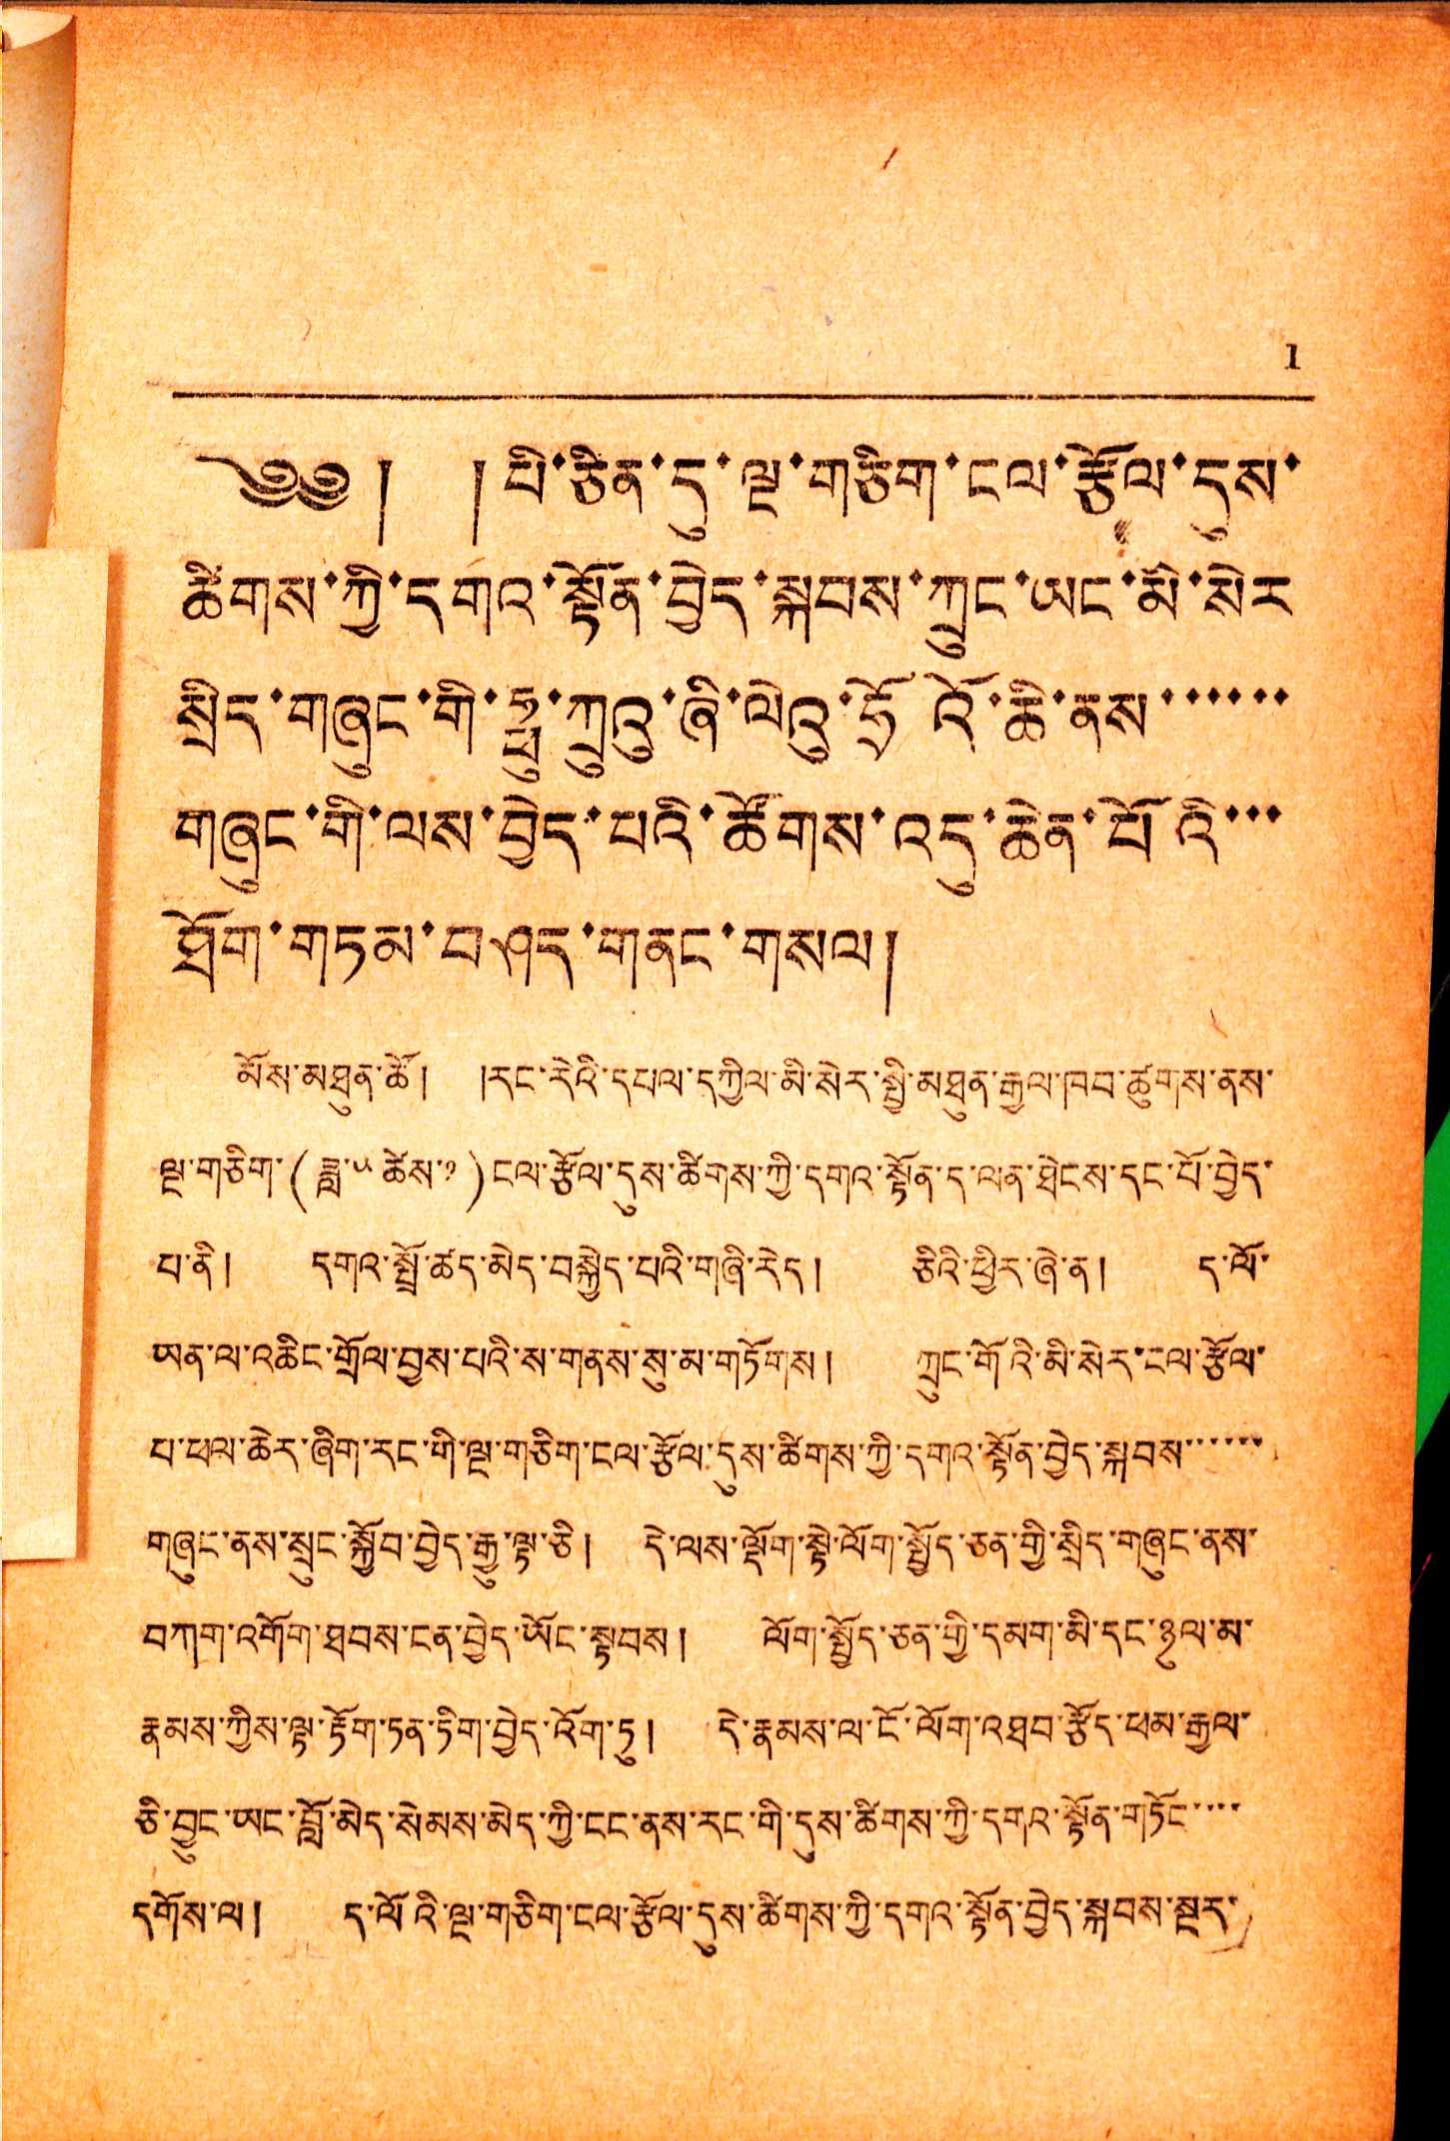1
༄༅། །པི་ཅིན་དུ་ལྔ་གཅིག་ངལ་རྩོལ་དུས་
ཚིགས་ཀྱི་དགའ་སྟོན་བྱེད་སྐབས་ཀྲུང་ཡང་མི་སེར
སྲིད་གཞུང་གི་ཧྥུ་ཀྲུའུ་ཞི་ལེའུ་ཧྲོའོ་ཆི་ནས་་་་་་
གཞུང་གི་ལས་བྱེད་པའི་ཚོགས་འདུ་ཆེན་པོའི་་་
ཐོག་གཏམ་བཤད་གནང་གསལ།
མོས་མཐུན་ཚོ། །རང་རེའི་དཔལ་དཀྱིལ་མི་སེར་སྤྱི་མཐུན་རྒྱལ་ཁབ་ཚུགས་ནས་
ལྔ་གཅིག་( ཟླ་༥ཚེས་༡ )ངམ་རྩོམ་དུས་ཚིགས་ཀྱི་དགའ་སྟོན་ད་ལན་ཐེངས་དང་པོ་བྱེད་
པ་ནི། དགའ་སྤྲོ་ཚད་མེད་བསྐྱེད་པའི་གཞི་རིད། ཅིའི་ཕྱིར་ཞེ་ན། ད་ལོ་
ཡན་ལ་འཆིང་གྲོལ་བྱས་པའི་ས་གནས་སུ་མ་གཏོགས། ཀྲུང་གོའི་མི་སེར་ངལ་རྩོལ་
པ་ཕལ་ཆེར་ཞིག་རང་གི་ལྔ་གཅིག་ངལ་རྩོལ་དུས་ཚིགས་ཀྱི་དགའ་སྟོན་བྱེད་སྐབས་་་
གཞུང་ནས་སྲུང་སྐྱོབ་བྱེད་རྒྱུ་ལྟ་ཅི། དེ་ལས་ལྡོག་སྟེ་ལོག་སྤྱོད་ཅན་གྱི་སྲིད་གཞུང་ནས་
བཀག་འགོག་ཐབས་ངན་བྱེད་ཡོང་སྟབས། ལོག་སྤྱོད་ཅན་གྱི་དམག་མི་རང་ཉུལ་མ་
རྣམས་ཀྱིས་ལྟ་རྟོག་ཏན་ཏིག་བྱེད་འོག་ཏུ། དེ་རྣམས་ལ་ངོ་ལོག་འཐབ་རྩོད་ཕམ་རྒྱལ་
ཅི་བྱུང་ཡང་བློ་མེད་སེམས་མེད་ཀྱི་ངང་ནས་རང་གི་དུས་ཚིགས་ཀྱི་དགའ་སྟོན་གཏོང་་་་
དགོས་ལ། ད་ལོའི་ལྔ་གཅིག་ངལ་རྩོལ་དུས་ཚིགས་ཀྱི་དགའ་སྟོན་བྱེད་སྐབས་སྔར་
